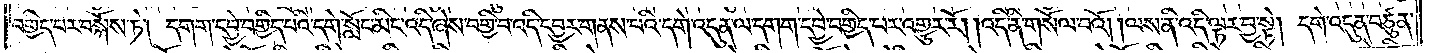བགྱིད་པར་བསྐོས་ཏེ། དགག་དབྱེ་བགྱིད་པའི་དགེ་སློང་མིང་འདི་ཞེས་བགྱི་བ་འདི་དབྱར་གནས་པའི་དགེ་འདུན་ལ་དགག་དབྱེ་བགྱིད་པར་འགྱུར་རོ། །འདི་ནི་གསོལ་བའོ། །ལས་ནི་འདི་ལྟར་བྱ་སྟེ། དགེ་འདུན་བཙུན་
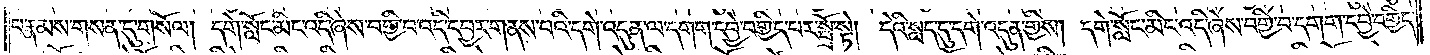པ་རྣམས་གསན་དུ་གསོལ། དགེ་སློང་མིང་འདི་ཞེས་བགྱི་བ་འདི་དབྱར་གནས་པའི་དགེ་འདུན་ལ་དགག་དབྱེ་བགྱིད་པར་སྤྲོ་སྟེ། དེའི་སླད་དུ་དགེ་འདུན་གྱིས། དགེ་སློང་མིང་འདི་ཞེས་བགྱི་བ་དགག་དབྱེ་བགྱིད་
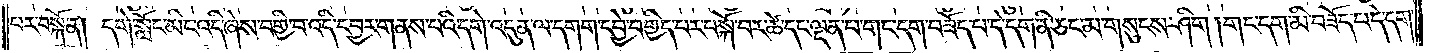པར་བསྐོ་ན། དགེ་སློང་མིང་འདི་ཞེས་བགྱི་བ་འདི་དབྱར་གནས་པའི་དགེ་འདུན་ལ་དགག་དབྱེ་བགྱིད་པར་བསྐོ་བར་ཚེ་དང་ལྡན་པ་གང་དག་བཟོད་པ་དེ་དག་ནི་ཅང་མ་གསུངས་ཤིག །གང་དག་མི་བཟོད་པ་དེ་དག་
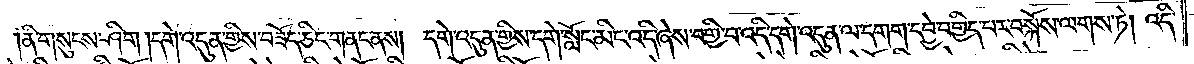ནི་གསུངས་ཤིག །དགེ་འདུན་གྱིས་བཟོད་ཅིང་གནང་ནས། དགེ་འདུན་གྱིས་དགེ་སློང་མིང་འདི་ཞེས་བགྱི་བ་འདི་དགེ་འདུན་ལ་དགག་དབྱེ་བགྱིད་པར་བསྐོས་ལགས་ཏེ། འདི་
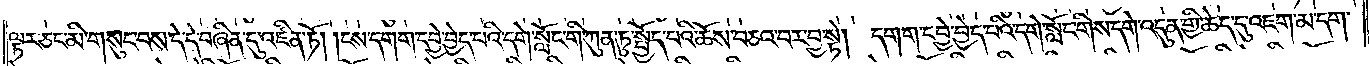ལྟར་ཅང་མི་གསུང་བས་དེ་དེ་བཞིན་དུ་འཛིན་ཏོ། །ངས་དགག་དབྱེ་བྱེད་པའི་དགེ་སློང་གི་ཀུན་ཏུ་སྤྱོད་པའི་ཆོས་བཅའ་བར་བྱ་སྟེ། དགག་དབྱེ་བྱེད་པའི་དགེ་སློང་གིས་དགེ་འདུན་གྱི་ཆེད་དུ་འཇག་མ་དག་
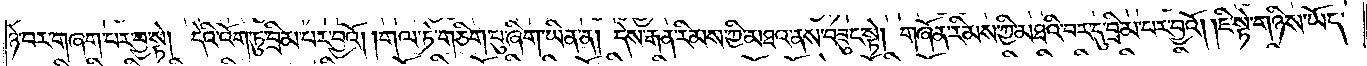ཉེ་བར་གཞག་པར་བྱ་སྟེ། དེའི་འོག་ཏུ་བྲིམ་པར་བྱའོ། །གལ་ཏེ་གཅིག་པུ་ཞིག་ཡིན་ན། དེས་རྒན་རིམས་ཀྱི་མཐའ་ནས་བཟུང་སྟེ། གཞོན་རིམས་ཀྱི་མཐའི་བར་དུ་བྲིམ་པར་བྱའོ། །ཇི་སྟེ་གཉིས་ཡོད་
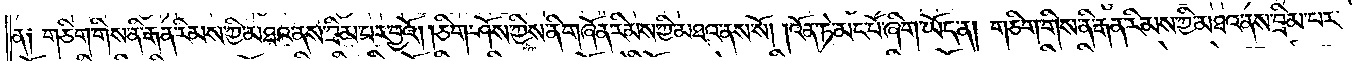ན༑ གཅིག་གིས་ནི་རྒན་རིམས་ཀྱི་མཐའ་ནས་བྲིམ་པར་བྱའོ། །ཅིག་ཤོས་ཀྱིས་ནི་གཞོན་རིམས་ཀྱི་མཐའ་ནས་སོ། །འོན་ཏེ་མང་པོ་ཞིག་ཡོད་ན། གཅིག་གིས་ནི་རྒན་རིམས་ཀྱི་མཐའ་ནས་བྲིམ་པར་
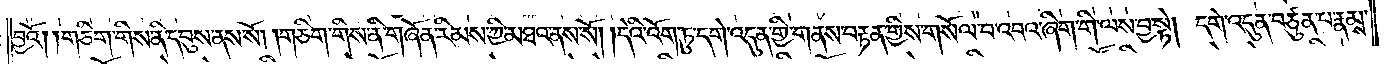བྱའོ། །གཅིག་གིས་ནི་དབུས་ནས་སོ། །གཅིག་གིས་ནི་གཞོན་རིམས་ཀྱི་མཐའ་ནས་སོ། །དེའི་འོག་ཏུ་དགེ་འདུན་གྱི་གནས་བརྟན་གྱིས་གསོལ་བ་འབའ་ཞིག་གི་ལས་བྱ་སྟེ། དགེ་འདུན་བཙུན་པ་རྣམས་
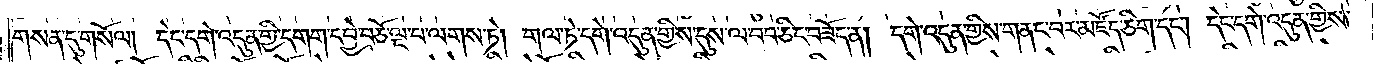གསན་དུ་གསོལ། དེང་དགེ་འདུན་གྱི་དགག་དབྱེ་བཅོ་ལྔ་པ་ལགས་ཏེ། གལ་ཏེ་དགེ་འདུན་གྱིས་དུས་ལ་བབ་ཅིང་བཟོད་ན། དགེ་འདུན་གྱིས་གནང་བར་མཛོད་ཅིག་དང༌། དེང་དགེ་འདུན་གྱིས་
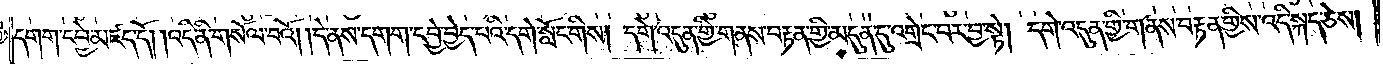དགག་དབྱེ་མཛད་དོ། །འདི་ནི་གསོལ་བའོ། །དེ་ནས་དགག་དབྱེ་བྱེད་པའི་དགེ་སློང་གིས། དགེ་འདུན་གྱི་གནས་བརྟན་གྱི་མདུན་དུ་འགྲེང་བར་བྱ་སྟེ། དགེ་འདུན་གྱི་གནས་བརྟན་གྱིས་འདི་སྐད་ཅེས།
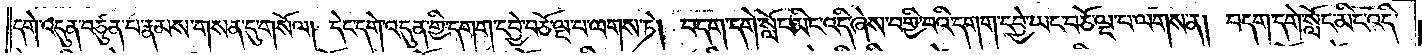དགེ་འདུན་བཙུན་པ་རྣམས་གསན་དུ་གསོལ། དེང་དགེ་འདུན་གྱི་དགག་དབྱེ་བཅོ་ལྔ་པ་ལགས་ཏེ། བདག་དགེ་སློང་མིང་འདི་ཞེས་བགྱི་བའི་དགག་དབྱེ་ཡང་བཅོ་ལྔ་པ་ལགས་ན། བདག་དགེ་སློང་མིང་འདི་
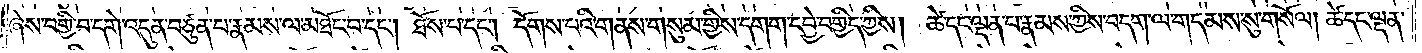ཞེས་བགྱི་བ་དགེ་འདུན་བཙུན་པ་རྣམས་ལ་མཐོང་བ་དང༌། ཐོས་པ་དང༌། དོགས་པའི་གནས་གསུམ་གྱིས་དགག་དབྱེ་བགྱིད་ཀྱིས། ཚེ་དང་ལྡན་པ་རྣམས་ཀྱིས་བདག་ལ་གདམས་སུ་གསོལ། ཚེ་དང་ལྡན་
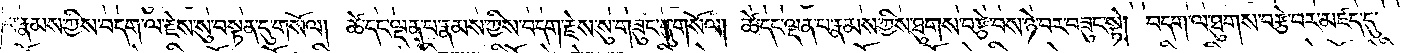པ་རྣམས་ཀྱིས་བདག་ལ་རྗེས་སུ་བསྟན་དུ་གསོལ། ཚེ་དང་ལྡན་པ་རྣམས་ཀྱིས་བདག་རྗེས་སུ་གཟུང་དུ་གསོལ། ཚེ་དང་ལྡན་པ་རྣམས་ཀྱིས་ཐུགས་བརྩེ་བས་ཉེ་བར་བཟུང་སྟེ། བདག་ལ་ཐུགས་བརྩེ་བར་མཛད་དུ་
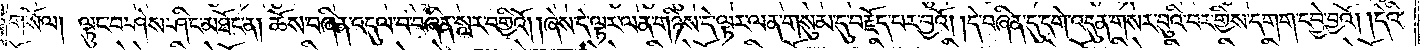གསོལ། ལྟུང་བ་ཤེས་ཤིང་མཐོང་ན། ཆོས་བཞིན་འདུལ་བ་བཞིན་སླར་བགྱིའོ། །ཞེས་དེ་ལྟར་ལན་གཉིས་དེ་ལྟར་ལན་གསུམ་དུ་བརྗོད་པར་བྱའོ། །དེ་བཞིན་དུ་དགེ་འདུན་གསར་བུའི་བར་གྱིས་དགག་དབྱེ་བྱའོ། །དེའི་
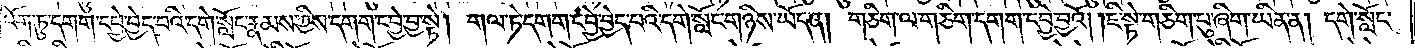འོག་ཏུ་དགག་དབྱེ་བྱེད་པའི་དགེ་སློང་རྣམས་ཀྱིས་དགག་དབྱེ་བྱ་སྟེ། གལ་ཏེ་དགག་དབྱེ་བྱེད་པའི་དགེ་སློང་གཉིས་ཡོད་ན། གཅིག་ལ་གཅིག་དགག་དབྱེ་བྱའོ། །ཇི་སྟེ་གཅིག་པུ་ཞིག་ཡིན་ན། དགེ་སློང་
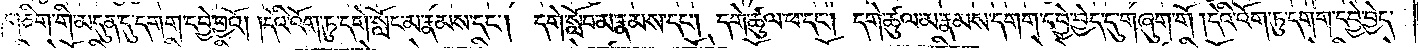གཅིག་གི་མདུན་དུ་དགག་དབྱེ་བྱའོ། །དེའོ་འོག་ཏུ་དགེ་སློང་མ་རྣམས་དང༌། དགེ་སློང་མ་རྣམས་དང༌། དགེ་ཚུལ་དང༌། དགེ་ཚུལ་མ་རྣམས་དགག་དབྱེ་བྱེད་དུ་གཞུག་གོ །དེའི་འོག་ཏུ་དགག་དབྱེ་བྱེད་
